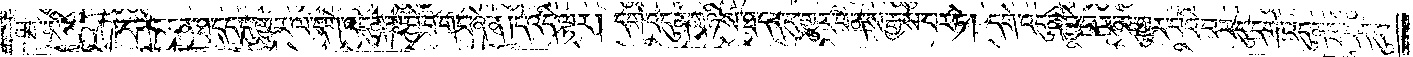མ་ཡིན་ནོ། །དགེ་འདུན་ཐ་དད་དུ་གྱུར་ལ་དགེ་འདུན་མ་བྱེ་བ་གང་ཞེ་ན། དེ་འདི་ལྟར། དགེ་འདུན་གཉིས་ཐ་དད་དུ་གྱུར་བ་ནས་རྒྱས་པར་ཏེ། དགེ་འདུན་བྱེ་བར་མ་གྱུར་པའི་བར་དུ་དགེ་འདུན་ཐ་དད་དུ་
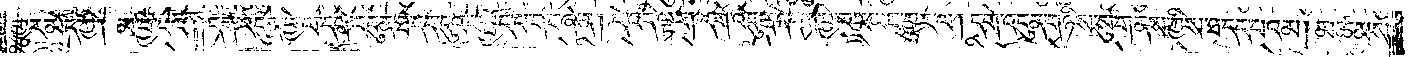གྱུར་མོད་ཀྱི། མ་བྱེ་བའོ། །དགེ་འདུན་བྱེ་ལ་དགེ་འདུན་ཐ་དད་དུའང་སྤྱོད་པ་གང་ཞེ་ན། དེ་འདི་ལྟར། དགེ་འདུན་དེ་དག་བྱེ་བར་ཡང་གྱུར་ལ། དགེ་འདུན་གཉིས་སུ་གནས་ཀྱིས་ཐ་དད་པའམ། མཚམས་
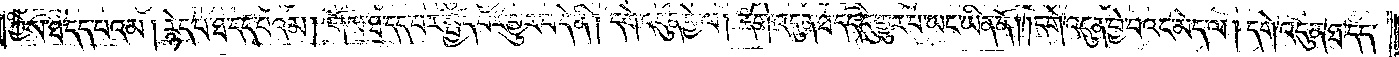ཀྱིས་ཐ་དད་པའམ། རྙེད་པ་ཐ་དད་པའམ། གོས་ཐ་དད་པར་སྤྱོད་པར་གྱུར་པ་དེ་ནི། དགེ་འདུན་བྱེ་ལ། དགེ་འདུན་ཐ་དད་དུ་གྱུར་པ་ཡང་ཡིན་ནོ། །དགེ་འདུན་བྱེ་བའང་མེད་ལ། དགེ་འདུན་ཐ་དད་
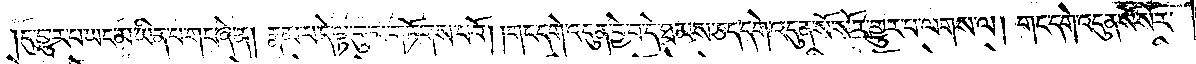དུ་གྱུར་པ་ཡང་མ་ཡིན་པ་གང་ཞེ་ན། རྣམ་པ་དེ་ལྟ་བུ་མ་གཏོགས་པའོ། །གང་དགེ་འདུན་བྱེ་བ་དེ་ཐམས་ཅད་དགེ་འདུན་སོ་སོར་གྱུར་པ་ལགས་ལ། གང་དགེ་འདུན་སོ་སོར་
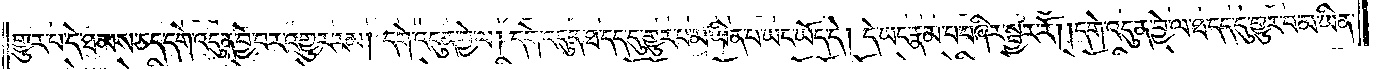གྱུར་པ་དེ་ཐམས་ཅད་དགེ་འདུན་བྱེ་བར་འགྱུར་རམ། དགེ་འདུན་བྱེ་ལ། དགེ་འདུན་ཐ་དད་དུ་གྱུར་པ་མ་ཡིན་པ་ཡང་ཡོད་དེ། དེ་ཡང་རྣམ་པ་བཞིར་སྦྱར་རོ། །དགེ་འདུན་བྱེ་ལ་ཐ་དད་དུ་གྱུར་པ་མ་ཡིན་
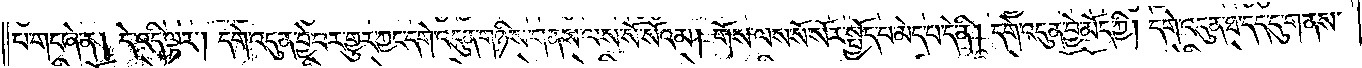པ་གང་ཞེ་ན། དེ་འདི་ལྟར། དགེ་འདུན་བྱེ་བར་གྱུར་ཀྱང་དགེ་འདུན་གཉིས་གནས་ལས་སོ་སོའམ། གོས་ལས་སོ་སོར་སྤྱོད་པ་མེད་པ་དེ་ནི། དགེ་འདུན་བྱེ་མོད་ཀྱི། དགེ་འདུན་ཐ་དད་དུ་གནས་
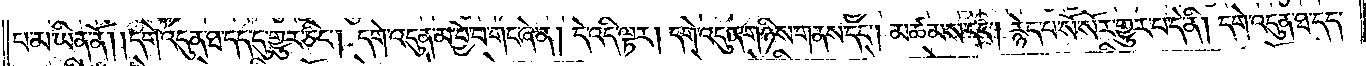པ་མ་ཡིན་ནོ། །དགེ་འདུན་ཐ་དད་དུ་གྱུར་ཅིང༌། དགེ་འདུན་མ་བྱེ་བ་གང་ཞེ་ན། དེ་འདི་ལྟར། དགེ་འདུན་གཉིས་གནས་དང༌། མཚམས་དང༌། རྙེད་པ་སོ་སོར་གྱུར་པ་དེ་ནི། དགེ་འདུན་ཐ་དད་
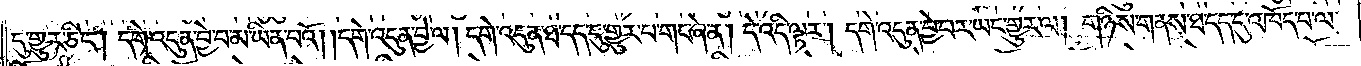དུ་གྱུར་ཅིང༌། དགེ་འདུན་བྱེ་བ་མ་ཡིན་པའོ། །དགེ་འདུན་བྱེ་ལ། དགེ་འདུན་ཐ་དད་དུ་གྱུར་པ་གང་ཞེ་ན། དེ་འདི་ལྟར། དགེ་འདུན་བྱེ་བར་ཡང་གྱུར་ལ། གཉིས་གནས་ཐ་དད་དུ་འཁོད་པ་ལ་
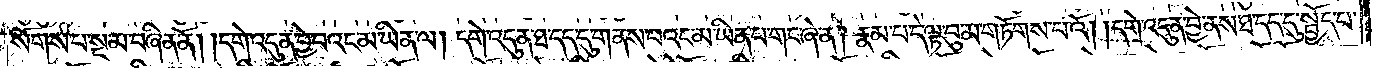སོགས་པ་སྔ་མ་བཞིན་ནོ། །དགེ་འདུན་བྱེ་བའང་མ་ཡིན་ལ། དགེ་འདུན་ཐ་དད་དུ་གནས་པའང་མ་ཡིན་པ་གང་ཞེ་ན། རྣམ་པ་དེ་ལྟ་བུ་མ་གཏོགས་པའོ། །དགེ་འདུན་བྱེ་ནས་ཐ་དད་དུ་སྤྱོད་པ་
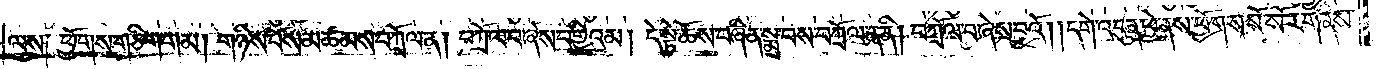ལས༑ ཕྱོགས་གཅིག་གམ། གཉིས་པོས་མཚམས་བཀྲོལ་ན། བཀྲོལ་བ་ཞེས་བགྱིའམ། དེ་སྟེ་ཆོས་བཞིན་སྨྲ་བས་བཀྲོལ་ན་ནི། བཀྲོལ་བ་ཞེས་བྱའོ། །དགེ་འདུན་ཕྱེ་ནས་ཕྱོགས་སོ་སོར་གནས་
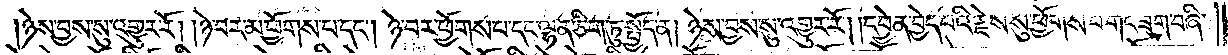ཉེས་བྱས་སུ་འགྱུར་རོ། །ཉེ་བར་མ་ཕྱོགས་པ་དང༌། ཉེ་བར་ཕྱོགས་པ་དང་ལྷན་ཅིག་ཏུ་སྤྱོད་ན། ཉེས་བྱས་སུ་འགྱུར་རོ། །དབྱེན་བྱེད་པའི་རྗེས་སུ་ཕྱོགས་པ་གང་ཟག་བཞི་
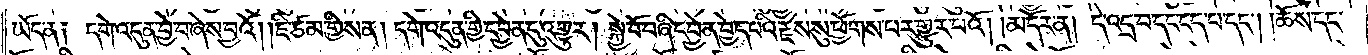ཡོད་ན༑ དགེ་འདུན་བྱེ་བ་ཞེས་བྱའོ། །ཇི་ཙམ་གྱིས་ན། དགེ་འདུན་གྱི་དབྱེན་དུ་འགྱུར། སྐྱེ་བོ་བཞི་དབྱེན་བྱེད་པའི་རྗེས་སུ་ཕྱོགས་པར་གྱུར་པའོ། །མདོར་ན། དེ་འདྲ་བ་དང་ངད་པ་དང༌། །ཆོས་དང་
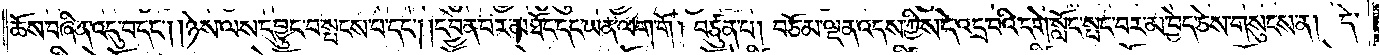ཆོས་བཞིན་འདུ་བ་དང༌། །ཉེས་ལས་དབྱུང་བ་སྤངས་པ་དང༌། །དབྱེན་པ་མཐོང་དང་ཡན་ལག་གོ། བཙུན་པ། བཅོམ་ལྡན་འདས་ཀྱིས་དེ་འདྲ་བའི་དགེ་སློང་སྤང་བར་མ་བྱེད་ཅེས་གསུངས་ན། དེ་
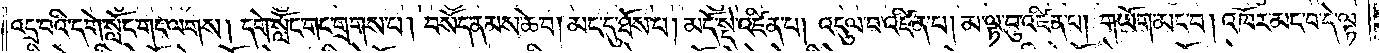འདྲ་བའི་དགེ་སློང་གང་ལགས། དགེ་སློང་གང་གྲགས་པ། བསོད་ནམས་ཆེ་བ། མང་དུ་ཐོས་པ། མདོ་སྡེ་འཛིན་པ། འདུལ་བ་འཛིན་པ། མ་ལྟ་བུ་འཛིན་པ། གཡོག་མང་བ། འཁོར་མང་བ་དེ་ལྟ་
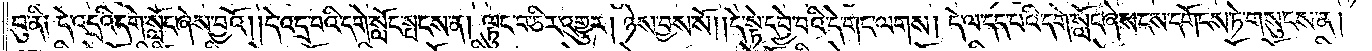བུ་ནི། དེ་འདྲའི་དགེ་སློང་ཞེས་བྱའོ། །དེ་འདྲ་བའི་དགེ་སློང་སྤངས་ན། ལྟུང་བ་ཅིར་འགྱུར། ཉེས་བྱས་སོ། །དེ་སྟེ་དབྱེ་བའི་དེ་གང་ལགས། དེ་ལ་དད་པའི་དགེ་སློང་ཞེས་ངས་དགོངས་ཏེ་གསུངས་ན།
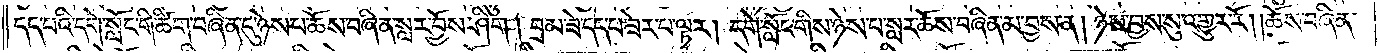དད་པའི་དགེ་སློང་གི་ཚིག་བཞིན་དུ་ཉེས་པ་ཆོས་བཞིན་སླར་བྱོས་ཤིག། བྲམ་ཟེ་དད་པ་ཟེར་པ་ལྟར། དགེ་སློང་གིས་ཉེས་པ་སླར་ཆོས་བཞིན་མ་བྱས་ན། ཉེས་བྱས་སུ་འགྱུར་རོ། །ཆོས་བཞིན་
